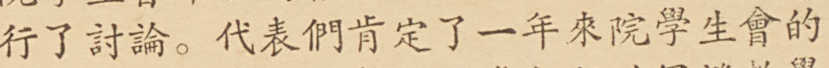行了討論。代表們肯定了一年來院學生會的
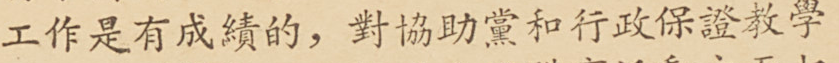工作是有成績的，對協助黨和行政保證教學
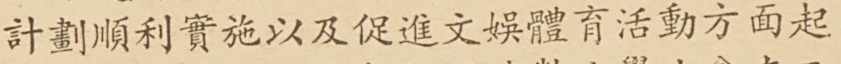計劃順利實施以及促進文娛體育活動方面起
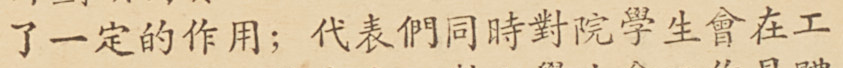了一定的作用；代表們同時對院學生會在工
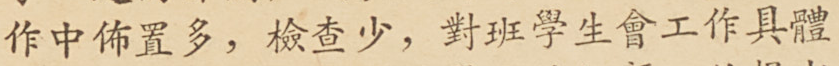作中佈置多，檢查少，對班學生會工作具體
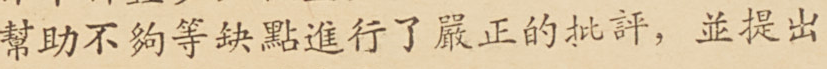幫助不夠等缺點進行了嚴正的批評，並提出
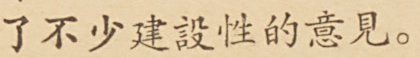了不少建設性的意見。
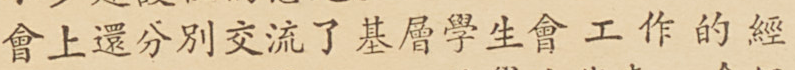會上還分別交流了基層學生會工作的經
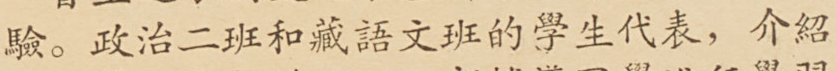驗。政治二班和藏語文班的學生代表，介紹
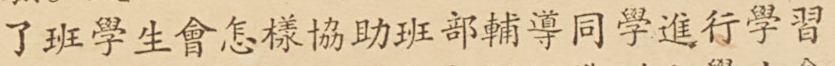了班學生會怎樣協助班部輔導同學進行學習
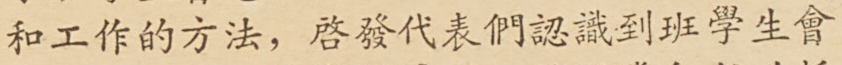和工作的方法，啓發代表們認識到班學生會
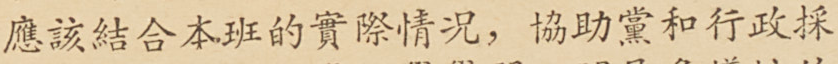應該結合本班的實際情況，協助黨和行政採
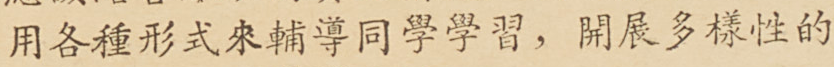用各種形式來輔導同學學習，開展多樣性的
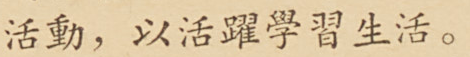活動，以活躍學習生活。
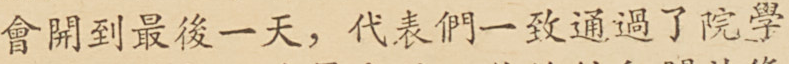會開到最後一天，代表們一直通過了院學
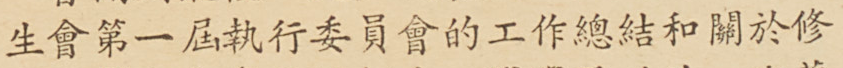生會第一屆執行委員會的工作總結和關於修
